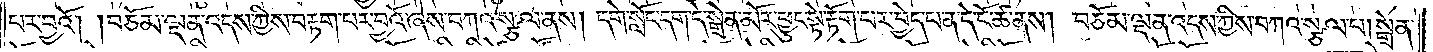པར་བྱའོ། །བཅོམ་ལྡན་འདས་ཀྱིས་བརྟག་པར་བྱའོ་ཞེས་བཀའ་སྩལ་ནས། དགེ་སློང་དག་དེ་སྒྲེན་མོར་ཕྱུང་སྟེ་རྟོག་པར་བྱེད་པ་ན་དེ་ངོ་ཚ་ནས། བཅོམ་ལྡན་འདས་ཀྱིས་བཀའ་སྩལ་པ། སྒྲེན་
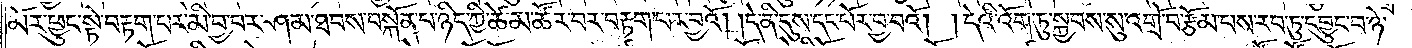མོར་ཕྱུང་སྟེ་བརྟག་པར་མི་བྱ་བར་ཤམ་ཐབས་བསྐོན་པ་ཉིད་ཀྱི་ཚེ་མ་ཚོར་བར་བརྟག་པར་བྱའོ། །དེ་ནི་དུས་དང་པོར་བྱ་བའོ། །དེའི་འོག་ཏུ་སྐྱབས་སུ་འགྲོ་བ་རྩོམ་པས་རབ་ཏུ་དབྱུང་བ་ཉེ་
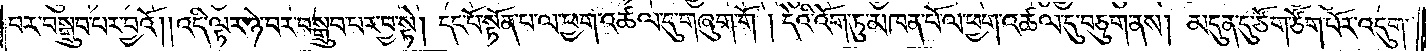བར་བསྒྲུབ་པར་བྱའོ༎འདི་ལྟར་ཉེ་བར་བསྒྲུབ་པར་བྱ་སྟེ། དང་པོ་སྟོན་པ་ལ་ཕྱག་འཚལ་དུ་གཞུག་གོ །དེའི་འོག་ཏུ་མཁན་པོ་ལ་ཕྱག་འཚལ་དུ་བཅུག་ནས། མདུན་དུ་ཙོག་ཙོག་པོར་འདུག་
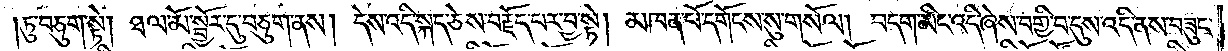ཏུ་བཅུག་སྟེ། ཐལ་མོ་སྦྱོར་དུ་བཅུག་ནས། དེས་འདི་སྐད་ཅེས་བརྗོད་པར་བྱ་སྟེ། མཁན་པོ་དགོངས་སུ་གསོལ། བདག་མིང་འདི་ཞེས་བགྱི་བ་དུས་འདི་ནས་བཟུང་
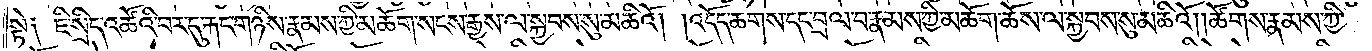སྟེ༑ ཇི་སྲིད་འཚོའི་བར་དུ་རྐང་གཉིས་རྣམས་ཀྱི་མཆོག་སངས་རྒྱས་ལ་སྐྱབས་སུ་མཆིའོ། །འདོད་ཆགས་དང་བྲལ་བ་རྣམས་ཀྱི་མཆོག་ཆོས་ལ་སྐྱབས་སུ་མཆིའོ། །ཚོགས་རྣམས་ཀྱི་
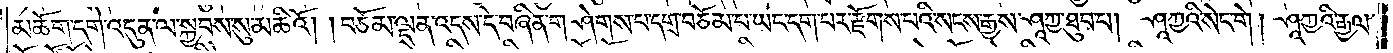མཆོག་དགེ་འདུན་ལ་སྐྱབས་སུ་མཆིའོ། །བཅོམ་ལྡན་འདས་དེ་བཞིན་གཤེགས་པ་དགྲ་བཅོམ་པ་ཡང་དག་པར་རྫོགས་པའི་སངས་རྒྱས་ཤཱཀྱ་ཐུབ་པ། ཤཱཀྱའི་སེང་གེ། ཤཱཀྱའི་རྒྱལ་
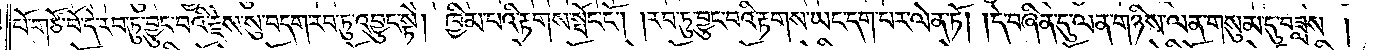པོ་གཙོ་བོ་དེ་རབ་ཏུ་བྱུང་བའི་རྗེས་སུ་བདག་རབ་ཏུ་འབྱུང་སྟེ། ཁྱིམ་པའི་རྟགས་སྤོང་ངོ༌། །རབ་ཏུ་བྱུང་བའི་རྟགས་ཡང་དག་པར་ལེན་ཏོ། །དེ་བཞིན་དུ་ལན་གཉིས་ལན་གསུམ་དུ་བཟླས།
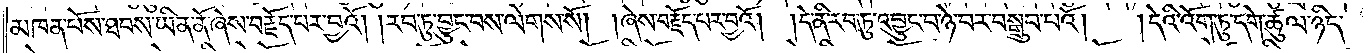མཁན་པོ་ཐབས་ཡིན་ནོ་ཞེས་བརྗོད་པར་བྱའོ། །རབ་ཏུ་བྱུང་བས་ལེགས་སོ། །ཞེས་བརྗོད་པར་བྱའོ། །དེ་ནི་རབ་ཏུ་འབྱུང་བ་ཉེ་བར་བསྒྲུབ་པའོ། །དེའི་འོག་ཏུ་དགེ་ཚུལ་ཉིད་
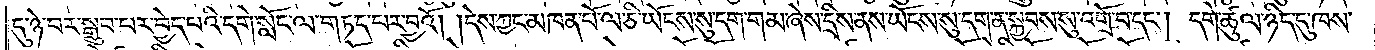དུ་ཉེ་བར་སྒྲུབ་པར་བྱེད་པའི་དགེ་སློང་ལ་གཏད་པར་བྱའོ། །དེས་ཀྱང་མཁན་པོ་ལ་ཅི་ཡོངས་སུ་དག་གམ་ཞེས་དྲིས་ནས་ཡོངས་སུ་དག་ན་སྐྱབས་སུ་འགྲོ་བ་དང༌། དགེ་ཚུལ་ཉིད་དུ་ཁས་
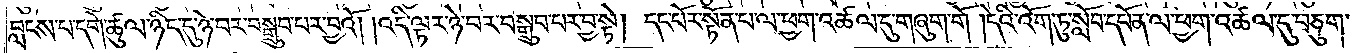བླངས་པ་དགེ་ཚུལ་ཉིད་དུ་ཉེ་བར་བསྒྲུབ་པར་བྱའོ། །འདི་ལྟར་ཉེ་བར་བསྒྲུབ་པར་བྱ་སྟེ། དང་པོར་སྟོན་པ་ལ་ཕྱག་འཚལ་དུ་གཞུག་གོ །དེའི་འོག་ཏུ་སློབ་དཔོན་ལ་ཕྱག་འཚལ་དུ་བཅུག་
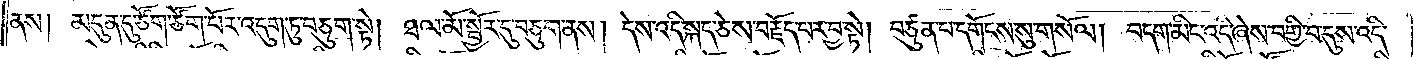ནས། མདུན་དུ་ཙོག་ཙོག་པོར་འདུག་ཏུ་བཅུག་སྟེ། ཐལ་མོ་སྦྱོར་དུ་བཅུག་ནས། དེས་འདི་སྐད་ཅེས་བརྗོད་པར་བྱ་སྟེ། བཙུན་པ་དགོངས་སུ་གསོལ། བདག་མིང་འདི་ཞེས་བགྱི་བ་དུས་འདི་
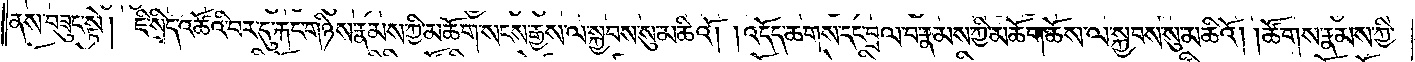ནས་བཟུང་སྟེ། ཇི་སྲིད་འཚོའི་བར་དུ་རྐང་གཉིས་རྣམས་ཀྱི་མཆོག་སངས་རྒྱས་ལ་སྐྱབས་སུ་མཆིའོ། །འདོད་ཆགས་དང་བྲལ་བ་རྣམས་ཀྱི་མཆོག་ཆོས་ལ་སྐྱབས་སུ་མཆིའོ། །ཚོགས་རྣམས་ཀྱི་
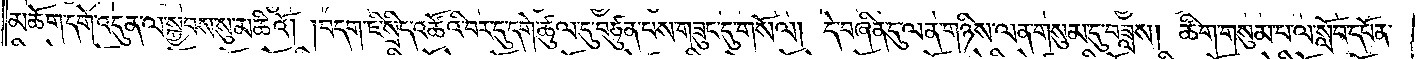མཆོག་དགེ་འདུན་ལ་སྐྱབས་སུ་མཆིའོ། །བདག་ཇི་སྲིད་འཚོའི་བར་དུ་དགེ་ཚུལ་དུ་བཙུན་པས་གཟུང་དུ་གསོལ། དེ་བཞིན་དུ་ལན་གཉིས་ལན་གསུམ་དུ་བཟླས། ཚིག་གསུམ་པ་ལ་སློབ་དཔོན་
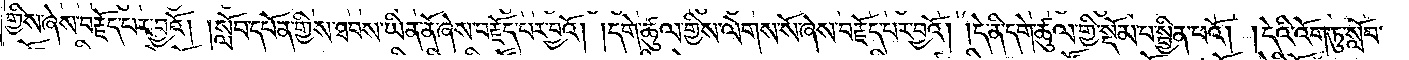གྱིས་ཞེས་བརྗོད་པར་བྱའོ། །སློབ་དཔོན་གྱིས་ཐབས་ཡིན་ནོ་ཞེས་བརྗོད་པར་བྱའོ། །དགེ་ཚུལ་གྱིས་ལེགས་སོ་ཞེས་བརྗོད་པར་བྱའོ། །དེ་ནི་དགེ་ཚུལ་གྱི་སྡོམ་པ་སྦྱིན་པའོ། །དེའི་འོག་ཏུ་སློབ་
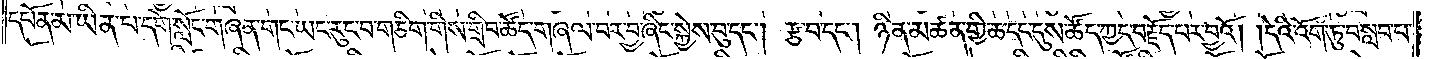དཔོན་མ་ཡིན་པ་དགེ་སློང་གཞན་གང་ཡང་རུང་བ་གཅིག་གིས་གྲིབ་ཚོད་གཞལ་བར་བྱ་ཞིང་སྐྱེས་བུ་དང༌། རྩ་བ་དང༌། ཉིན་མཚན་གྱི་ཆ་དང་དུས་ཚོད་ཀྱང་བརྗོད་པར་བྱའོ། །དེའི་འོག་ཏུ་བསླབ་པ་
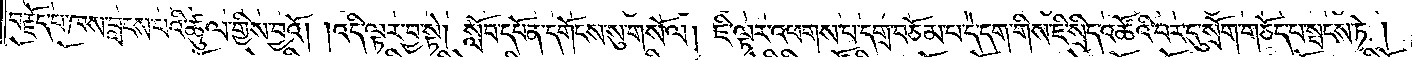བརྗོད་པ་ཁས་བླངས་པའི་ཚུལ་གྱིས་བྱའོ། །འདི་ལྟར་བྱ་སྟེ། སློབ་དཔོན་དགོངས་སུ་གསོལ། ཇི་ལྟར་འཕགས་པ་དགྲ་བཅོམ་པ་དེ་དག་གིས་ཇི་སྲིད་འཚོའི་བར་དུ་སྲོག་གཅོད་པ་སྤངས་ཏེ།
